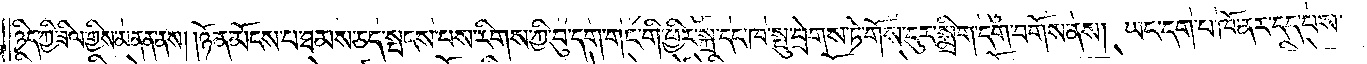ཉིད་ཀྱི་ཟིལ་གྱིས་མནན་ནས། ཉོན་མོངས་པ་ཐམས་ཅད་སྤངས་པས་རིགས་ཀྱི་བུ་དག་གང་གི་ཕྱིར་སྐྲ་དང་ཁ་སྦུ་བྲེགས་ཏེ་གོས་ངུར་སྨྲིག་དག་བགོས་ནས། ཡང་དག་པ་ཁོ་ནར་དད་པས་
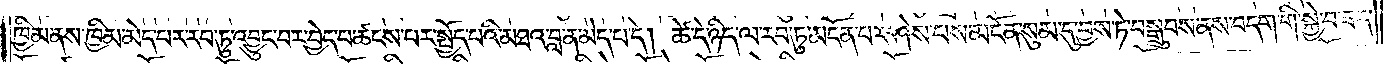ཁྱིམ་ནས་ཁྱིམ་མེད་པར་རབ་ཏུ་འབྱུང་བར་བྱེད་པ་ཚངས་པར་སྤྱོད་པའི་མཐའ་བླ་ན་མེད་པ་དེ། ཚེ་དེ་ཉིད་ལ་རབ་ཏུ་མངོན་པར་ཤེས་པས་མངོན་སུམ་དུ་བྱས་ཏེ་བསྒྲུབས་ནས་བདག་གི་སྐྱེ་བ་ཟད་
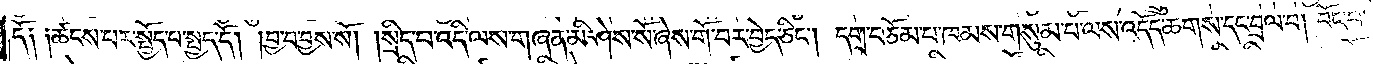དོ༑ ༑ཚངས་པར་སྤྱོད་པ་སྤྱད་དོ། །བྱ་བ་བྱས་སོ། །སྲིད་པ་འདི་ལས་གཞན་མི་ཤེས་སོ་ཞེས་གོ་བར་བྱེད་ཅིང༌། དགྲ་བཅོམ་པ་ཁམས་གསུམ་པ་ལས་འདོད་ཆགས་དང་བྲལ་བ། བོང་བ་
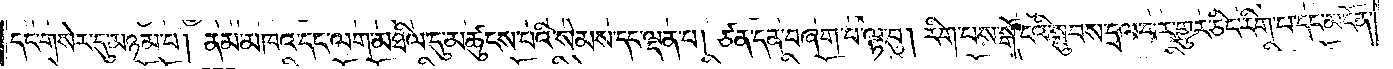དང་གསེར་དུ་མཉམ་པ། ནམ་མཁའ་དང་ལག་མཐིལ་དུ་མཚུངས་པའི་སེམས་དང་ལྡན་པ། ཙན་དན་བཞག་པ་ལྟ་བུ། རིག་པས་སྒོ་ངའི་སྦུབས་དྲལ་བར་གྱུར་ཅིང་རིག་པ་དང་མངོན་
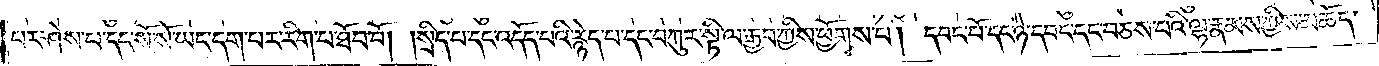པར་ཤེས་པ་དང་སོ་སོ་ཡང་དག་པར་རིག་པ་ཐོབ་བོ། །སྲིད་པ་དང་འདོད་པའི་རྙེད་པ་དང་བཀུར་སྟི་ལ་རྒྱབ་ཀྱིས་ཕྱོགས་པ། དབང་པོ་དང་ཉེ་དབང་དང་བཅས་པའི་ལྷ་རྣམས་ཀྱིས་མཆོད་
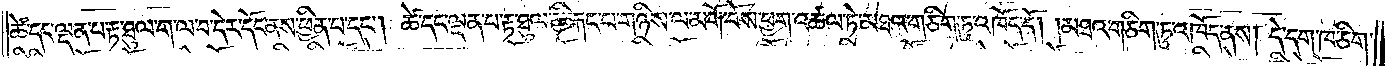ཚེ་དང་ལྡན་པ་རྟ་ཐུལ་ག་ལ་བ་དེར་དོང་ནས་ཕྱིན་པ་དང༌། ཚེ་དང་ལྡན་པ་རྟ་ཐུལ་གྱི་རྐང་པ་གཉིས་ལ་མགོ་བོས་ཕྱག་འཚལ་ཏེ་མཐའ་གཅིག་ཏུ་འཁོད་དོ། །མཐའ་གཅིག་ཏུ་འཁོད་ནས། དེ་དག་ཁ་ཅིག་
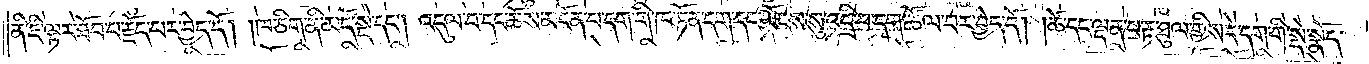ནི་ཇི་ལྟར་ཐོབ་པ་རྗོད་པར་བྱེད་དོ། །ཁ་ཅིག་ནི་མདོ་སྡེ་དང༌། འདུལ་བ་དང་ཆོས་མངོན་པ་དག་གི་ཁ་ཏོན་དག་དང་ཡོངས་སུ་འདྲི་བ་དག་ཚོལ་བར་བྱེད་དོ། །ཚེ་དང་ལྡན་པ་རྟ་ཐུལ་གྱིས་དེ་དག་གི་སྡེ་སྣོད་
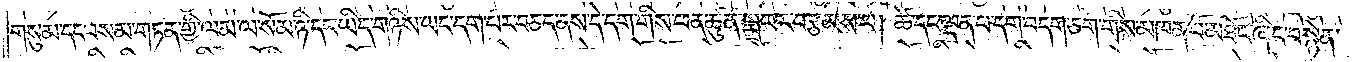གསུམ་དང་བསམ་གཏན་གྱི་ལམ་ལ་སོམ་ཉི་དང་ཡིད་གཉིས་ཡང་དག་པར་བཅད་ནས་དེ་དག་གིས་ཕན་ཚུན་སྨྲ་བར་བརྩམས་པ། ཚེ་དང་ལྡན་པ་དག་བདག་ཅག་གིས་མཁན་པོ་མཐོང་ཞིང་བསྙེན་
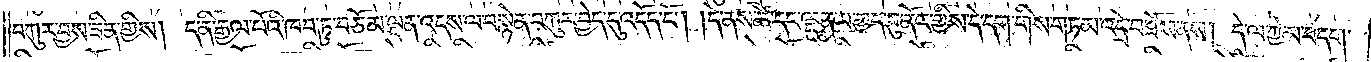བཀུར་བྱས་ཟིན་གྱིས། ད་ནི་རྒྱལ་པོའི་ཁབ་ཏུ་བཅོམ་ལྡན་འདས་ལ་བསྙེན་བཀུར་བྱེད་དུ་འདོང་ངོ༌། །དེ་ནས་ཚེ་དང་ལྡན་པ་གྱད་བུ་ནོར་གྱིས་དེ་དག་གིས་གཏམ་འདྲེ་བ་ཐོས་ནས། དེ་ལ་ཀྱེ་མ་བདག་
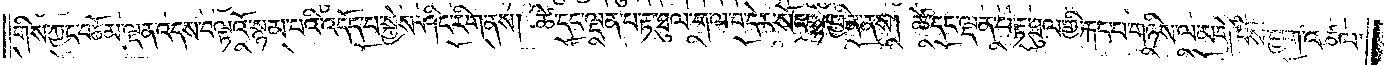གིས་ཀྱང་བཅོམ་ལྡན་འདས་བལྟའོ་སྙམ་པའི་འདོད་པ་སྐྱེས་ཤིང་རིག་ནས། ཚེ་དང་ལྡན་པ་རྟ་ཐུལ་ག་ལ་བ་དེར་སོང་སྟེ་ཕྱིན་ནས། ཚེ་དང་ལྡན་པ་རྟ་ཐུལ་གྱི་རྐང་པ་གཉིས་ལ་མགོ་བོས་ཕྱག་འཚལ་
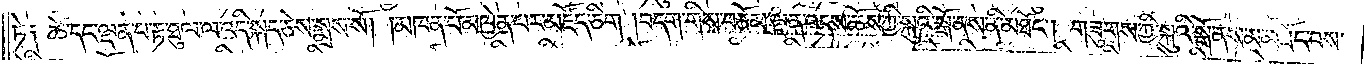ཏེ༑ ཚེ་དང་ལྡན་པ་རྟ་ཐུལ་ལ་འདི་སྐད་ཅེས་སྨྲས་སོ། །མཁན་པོ་མཁྱེན་པར་མཛོད་ཅིག །བདག་གིས་བཅོམ་ལྡན་འདས་ཆོས་ཀྱི་སྐུའི་སྒོ་ནས་ནི་མཐོང༌། གཟུགས་ཀྱི་སྐུའི་སྒོ་ནས་མ་མཐོང་བས་
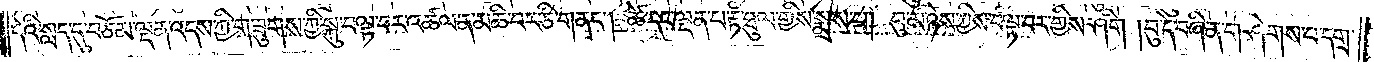དེའི་སླད་དུ་བཅོམ་ལྡན་འདས་ཀྱི་གཟུགས་ཀྱི་སྐུ་བལྟ་བར་འཚལ་ན་མཆི་བར་ཅི་གནང༌། ཚེ་དང་ལྡན་པ་རྟ་ཐུལ་གྱིས་སྨྲས་པ། བུ་མཉེས་ཀྱིས་བལྟ་བར་གྱིས་ཤིག །བུ་དེ་བཞིན་གཤེགས་པ་དགྲ་
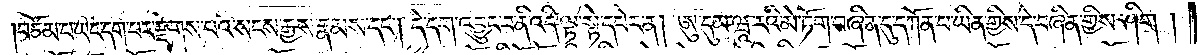བཅོམ་པ་ཡང་དག་པར་རྫོགས་པའི་སངས་རྒྱས་རྣམས་དང༌། དེ་དག་འབྱུང་བ་ནི་འདི་ལྟ་སྟེ་དཔེར་ན། ཨུ་དུམ་ཝཱ་རའི་མེ་ཏོག་བཞིན་དུ་དཀོན་པ་ཡིན་གྱིས་དེ་བཞིན་གྱིས་ཤིག །
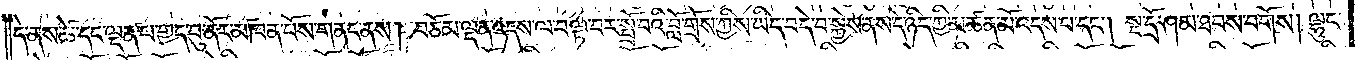དེ་ནས་ཚེ་དང་ལྡན་པ་གྱད་བུ་ནོར་མཁན་པོས་གནང་ནས། བཅོམ་ལྡན་འདས་ལ་བལྟ་བར་སྤྲོ་བའི་བློ་གྲོས་ཀྱིས་ཡིད་བདེ་བ་སྐྱེས་ནས་དེ་ཉིད་ཀྱིས་མཚན་མོ་འདས་པ་དང༌། སྔ་དྲོ་ཤམ་ཐབས་བགོས། ལྷུང་
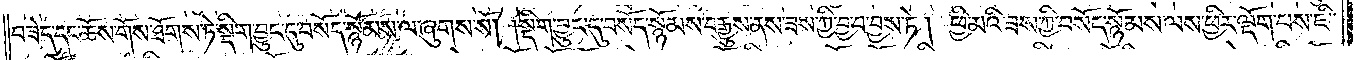བཟེད་དང་ཆོས་གོས་ཐོགས་ཏེ་སྡིག་བྱུང་དུ་བསོད་སྙོམས་ལ་ཞུགས་སོ། །སྡིག་བྱུང་དུ་བསོད་སྙོམས་བརྒྱུས་ནས་ཟས་ཀྱི་བྱ་བ་བྱས་ཏེ། ཕྱི་མའི་ཟས་ཀྱི་བསོད་སྙོམས་ལས་ཕྱིར་ལྡོག་པས་ཇི་
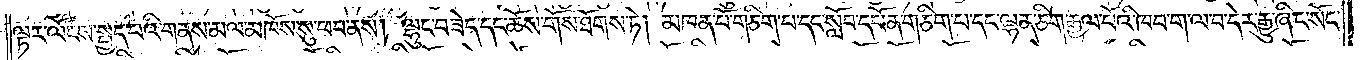ལྟར་ལོངས་སྤྱད་པའི་གནས་མལ་མཁོས་སུ་ཕབ་ནས། ལྷུང་བཟེད་དང་ཆོས་གོས་ཐོགས་ཏེ། མཁན་པོ་གཅིག་པ་དང་སློབ་དཔོན་གཅིག་པ་དང་ལྷན་ཅིག་རྒྱལ་པོའི་ཁབ་ག་ལ་བ་དེར་རྒྱུ་ཞིང་སོང་
